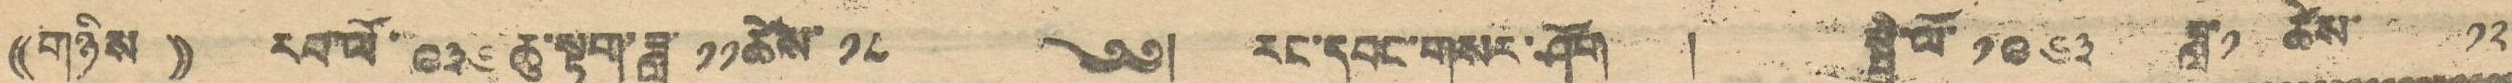((གཉིས་ )) རབ་ལོ་ ༩༣༦ ཆུ་སྟག་ཟླ་ ༡༡ཚེས་ ༡༨ ༄༅། རང་དབང་གསར་ཤོག །སྤྱི་ལོ ༡༩༦༣ ཟླ་ ༡  ཚེས་ ༡༢
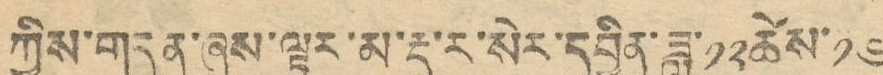ཀྱིས་གདན་ཞུས་ལྟར་མ་རྡ་ར་སེར་དབྱིན་ཟླ་ ༡༢ཚེས་ ༡༦
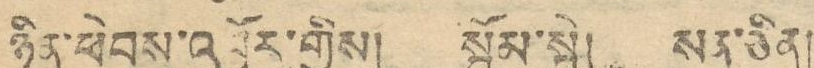ཉིན་ཕེབས་འབྱོར་གྱིས། སྦོམ་སྤེ། སན་ཅིན།
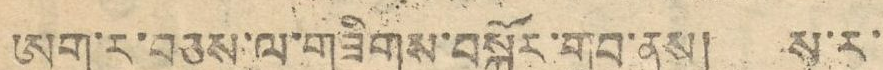ཨག་ར་བཅས་ལ་གཟིགས་བསྐོར་གྲུབ་ནས། ས་ར་
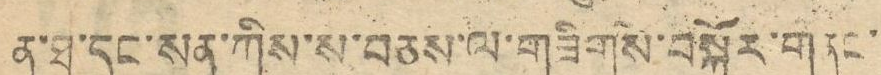ན་ཐ་དང་སན་ཀིས་ས་བཅས་ལ་གཟིགས་བསྐོར་གནང་
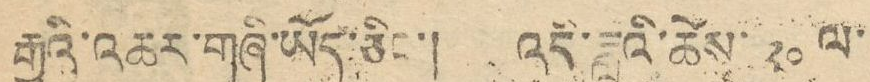རྒྱུའི་འཆར་གཞི་ཡོད་ཅིང་། འདི་ཟླའི་ཚེས་ ༢༠ ལ་
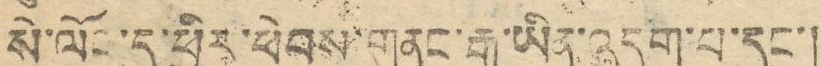སེ་ལོང་དུ་ཕྱིར་ཕེབས་གནང་རྒྱུ་ཡིན་འདུག་པ་དང་།
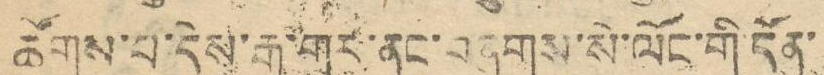ཚོགས་པ་དེས་རྒྱ་གར་ནང་བཞུགས་སེ་ལོང་གི་དོན་
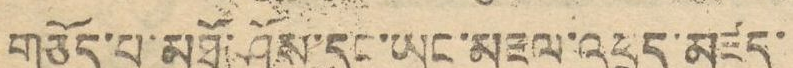གཅོད་པ་མཐོ་ཤོས་དང་ཡང་མཇལ་འཕྲད་མཛད་
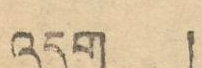འདུག །
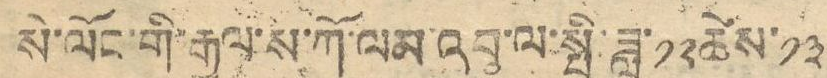སེ་ལོང་གི་རྒྱལ་ས་ཀོ་ལམ་འབུ་ལ་སྤྱི་ཟླ་ ༡༢ཚེས་༡༣
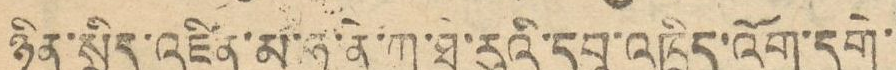ཉིན་སྲིད་འཛིན་མ་ཧཱ་ནེ་ཀ་ཐེ་རུའི་དབུ་འཁྲིད་འོག་དགེ་
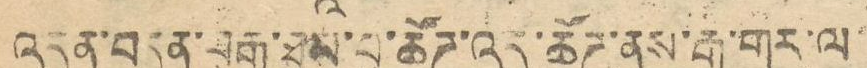འདུན་བདུན་བརྒྱ་ཐམ་པ་ཚོཊ་འདུ་ཚོཊ་ནས་རྒྱ་གར་ལ་
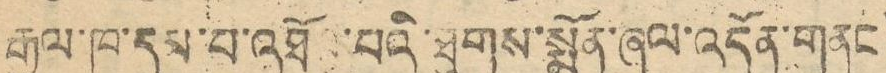རྒྱལ་ཁབ་དམ་པ་འཐོབ་པའི་ཐུགས་སྨོན་ཞལ་འདོན་གནང
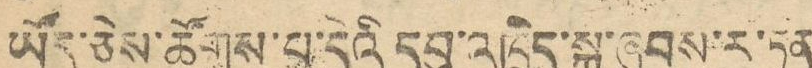ཡོད་ཅེས་ཚོགས་པ་དེའི དབུ་འཁྲིད་སྐུ་ཞབས་ར་ཏན
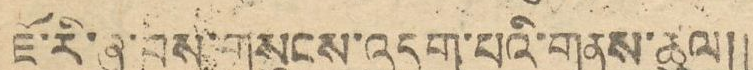ཇོ་རི་ཞུ་བས་གསུངས་འདུག་པའི་གནས་ཚུལ།།
